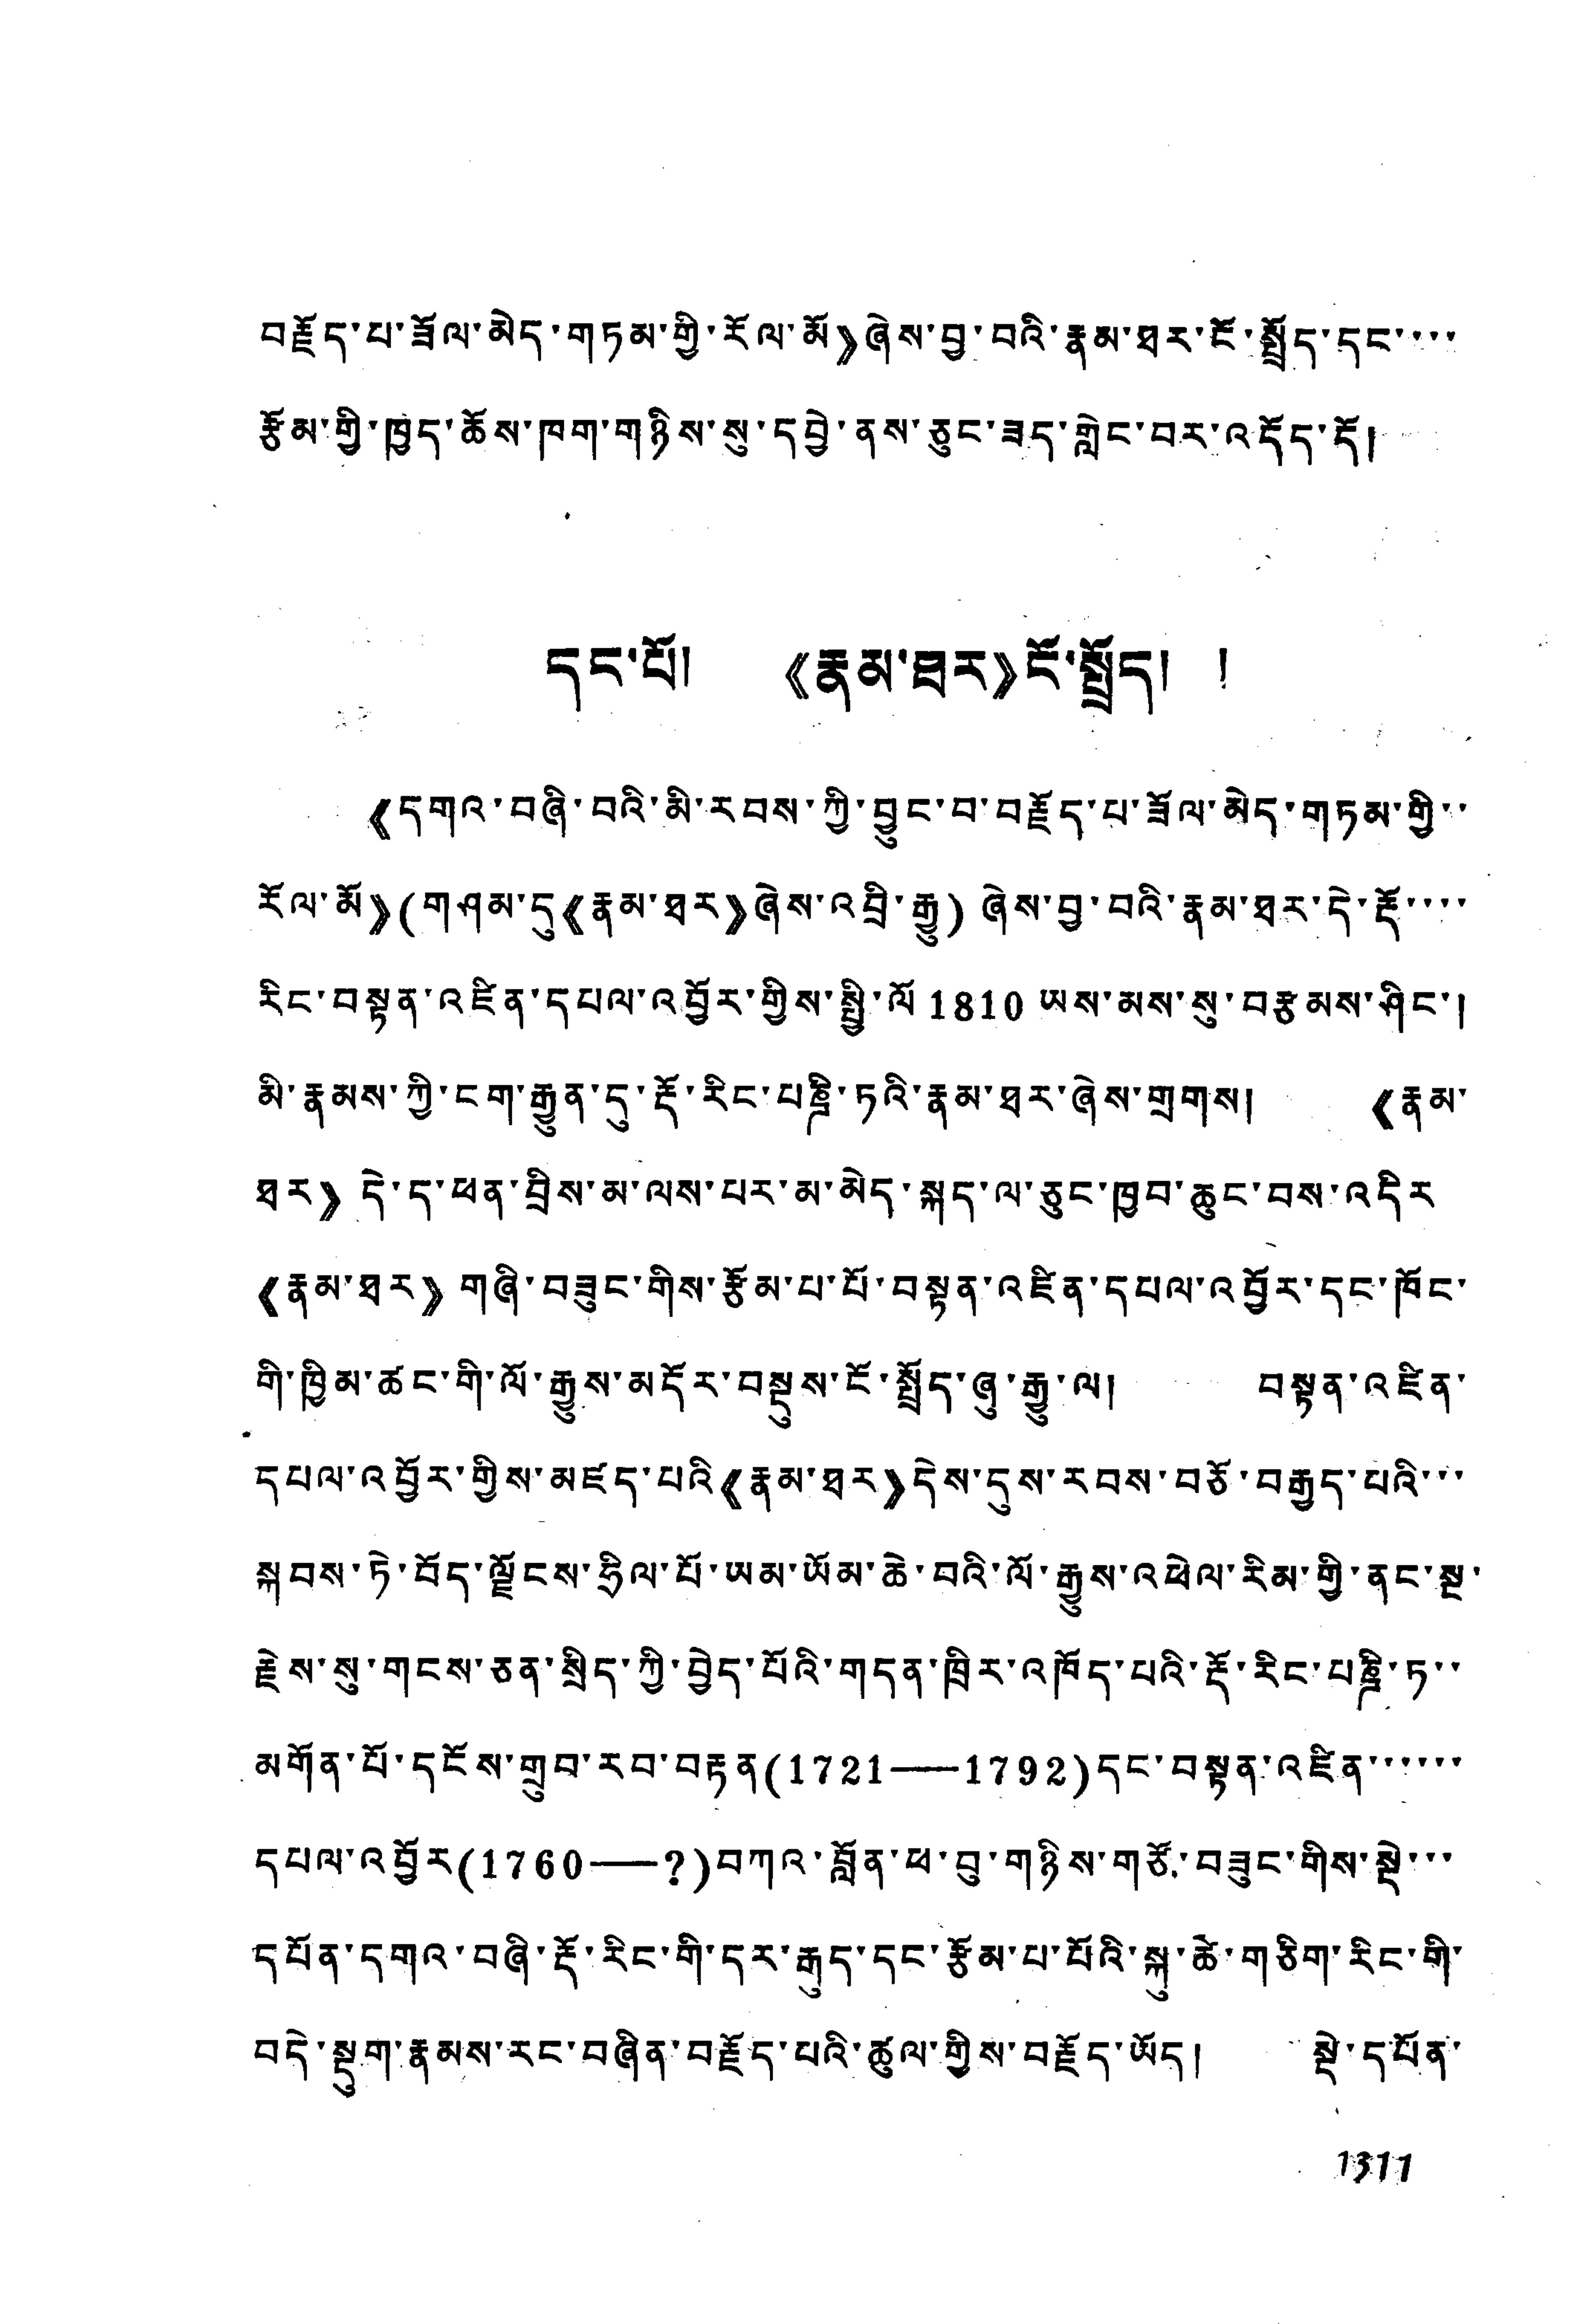བརྗོད་པ་ཟོལ་མེད་གཏམ་གྱི་རོལ་མོ》ཞེས་བྱ་བའི་རྣམ་ཐར་ངོ་སྤྱོད་དང་་་་
རྩོམ་གྱི་ཁྱད་ཆོས་ཁག་གཉིས་སུ་དབྱེ་ནས་ཅུང་ཟད་གླེང་བར་འདོད་དོ།
དང་པོ། 《རྣམ་ཐར》ངོ་སྤྱོད། །
《དགའ་བཞི་བའི་མི་རབས་ཀྱི་བྱུང་བ་བརྗོད་པ་ཟོལ་མེད་གཏམ་གྱི་་
རོལ་མོ》(གཤམ་དུ《རྣམ་ཐར》ཞེས་འབྲི་རྒྱ) ཞེས་བྱ་བའི་རྣམ་ཐར་དེ་རྡོ་་་་
རིང་བསྟན་འཛིན་དཔལ་འབྱོར་གྱིས་སྤྱི་ལོ 1810 ཡས་མས་སུ་བརྩམས་ཤིང་།
མི་རྣམས་ཀྱི་ངག་རྒྱུན་དུ་རྡོ་རིང་པཎྜི་ཏའི་རྣམ་ཐར་ཞེས་གྲགས། 《རྣམ་
ཐར》 དེ་ད་ཕན་བྲིས་མ་ལས་པར་མ་མེད་སྐད་ལ་ཅུང་ཁྱབ་ཆུང་བས་འདིར
《རྣམ་ཐར》 གཞི་བཟུང་གིས་རྩོམ་པ་པོ་བསྟན་འཛིན་དཔལ་འབྱོར་དང་ཁོང་
གི་ཁྲིམ་ཚང་གི་ལོ་རྒྱུས་མདོར་བསྡུས་ངོ་སྤྱོད་ཞུ་རྒྱ་ལ། བསྟན་འཛིན་
དཔལ་འབྱོར་གྱིས་མཛད་པའི《རྣམ་ཐར》དེས་དུས་རབས་བཅོ་བརྒྱད་པའི་་་
སྐབས་ཏེ་བོད་ལྗོངས་ཧྲིལ་པོ་ཡམ་ཡོམ་ཆེ་བའི་ལོ་རྒྱུས་འཕེལ་རིམ་གྱི་ནང་སྔ་
རྗེས་སུ་གངས་ཅན་སྲིད་ཀྱི་བྱེད་པོའི་གདན་ཁྲིར་འཁོད་པའི་རྡོ་རིང་པཎྜི་ཏ་་
མགོན་པོ་དངོས་གྲུབ་རབ་བརྟན (1721—1792) དང་བསྟན་འཛིན་་་་་་
དཔལ་འབྱོར (1760—?) བཀའ་བློན་ཕ་བུ་གཉིས་གཙོ་བཟུང་གིས་སྡེ་་་
དཔོན་དགའ་བཞི་རྡོ་རིང་གི་དར་རྒུད་དང་རྩོམ་པ་པོའི་སྐུ་ཚེ་གཅིག་རིང་གི་
བདེ་སྡུག་རྣམས་རང་བཞིན་བརྗོད་པའི་ཚུལ་གྱིས་བརྗོད་ཡོད། སྡེ་དཔོན་
1311
